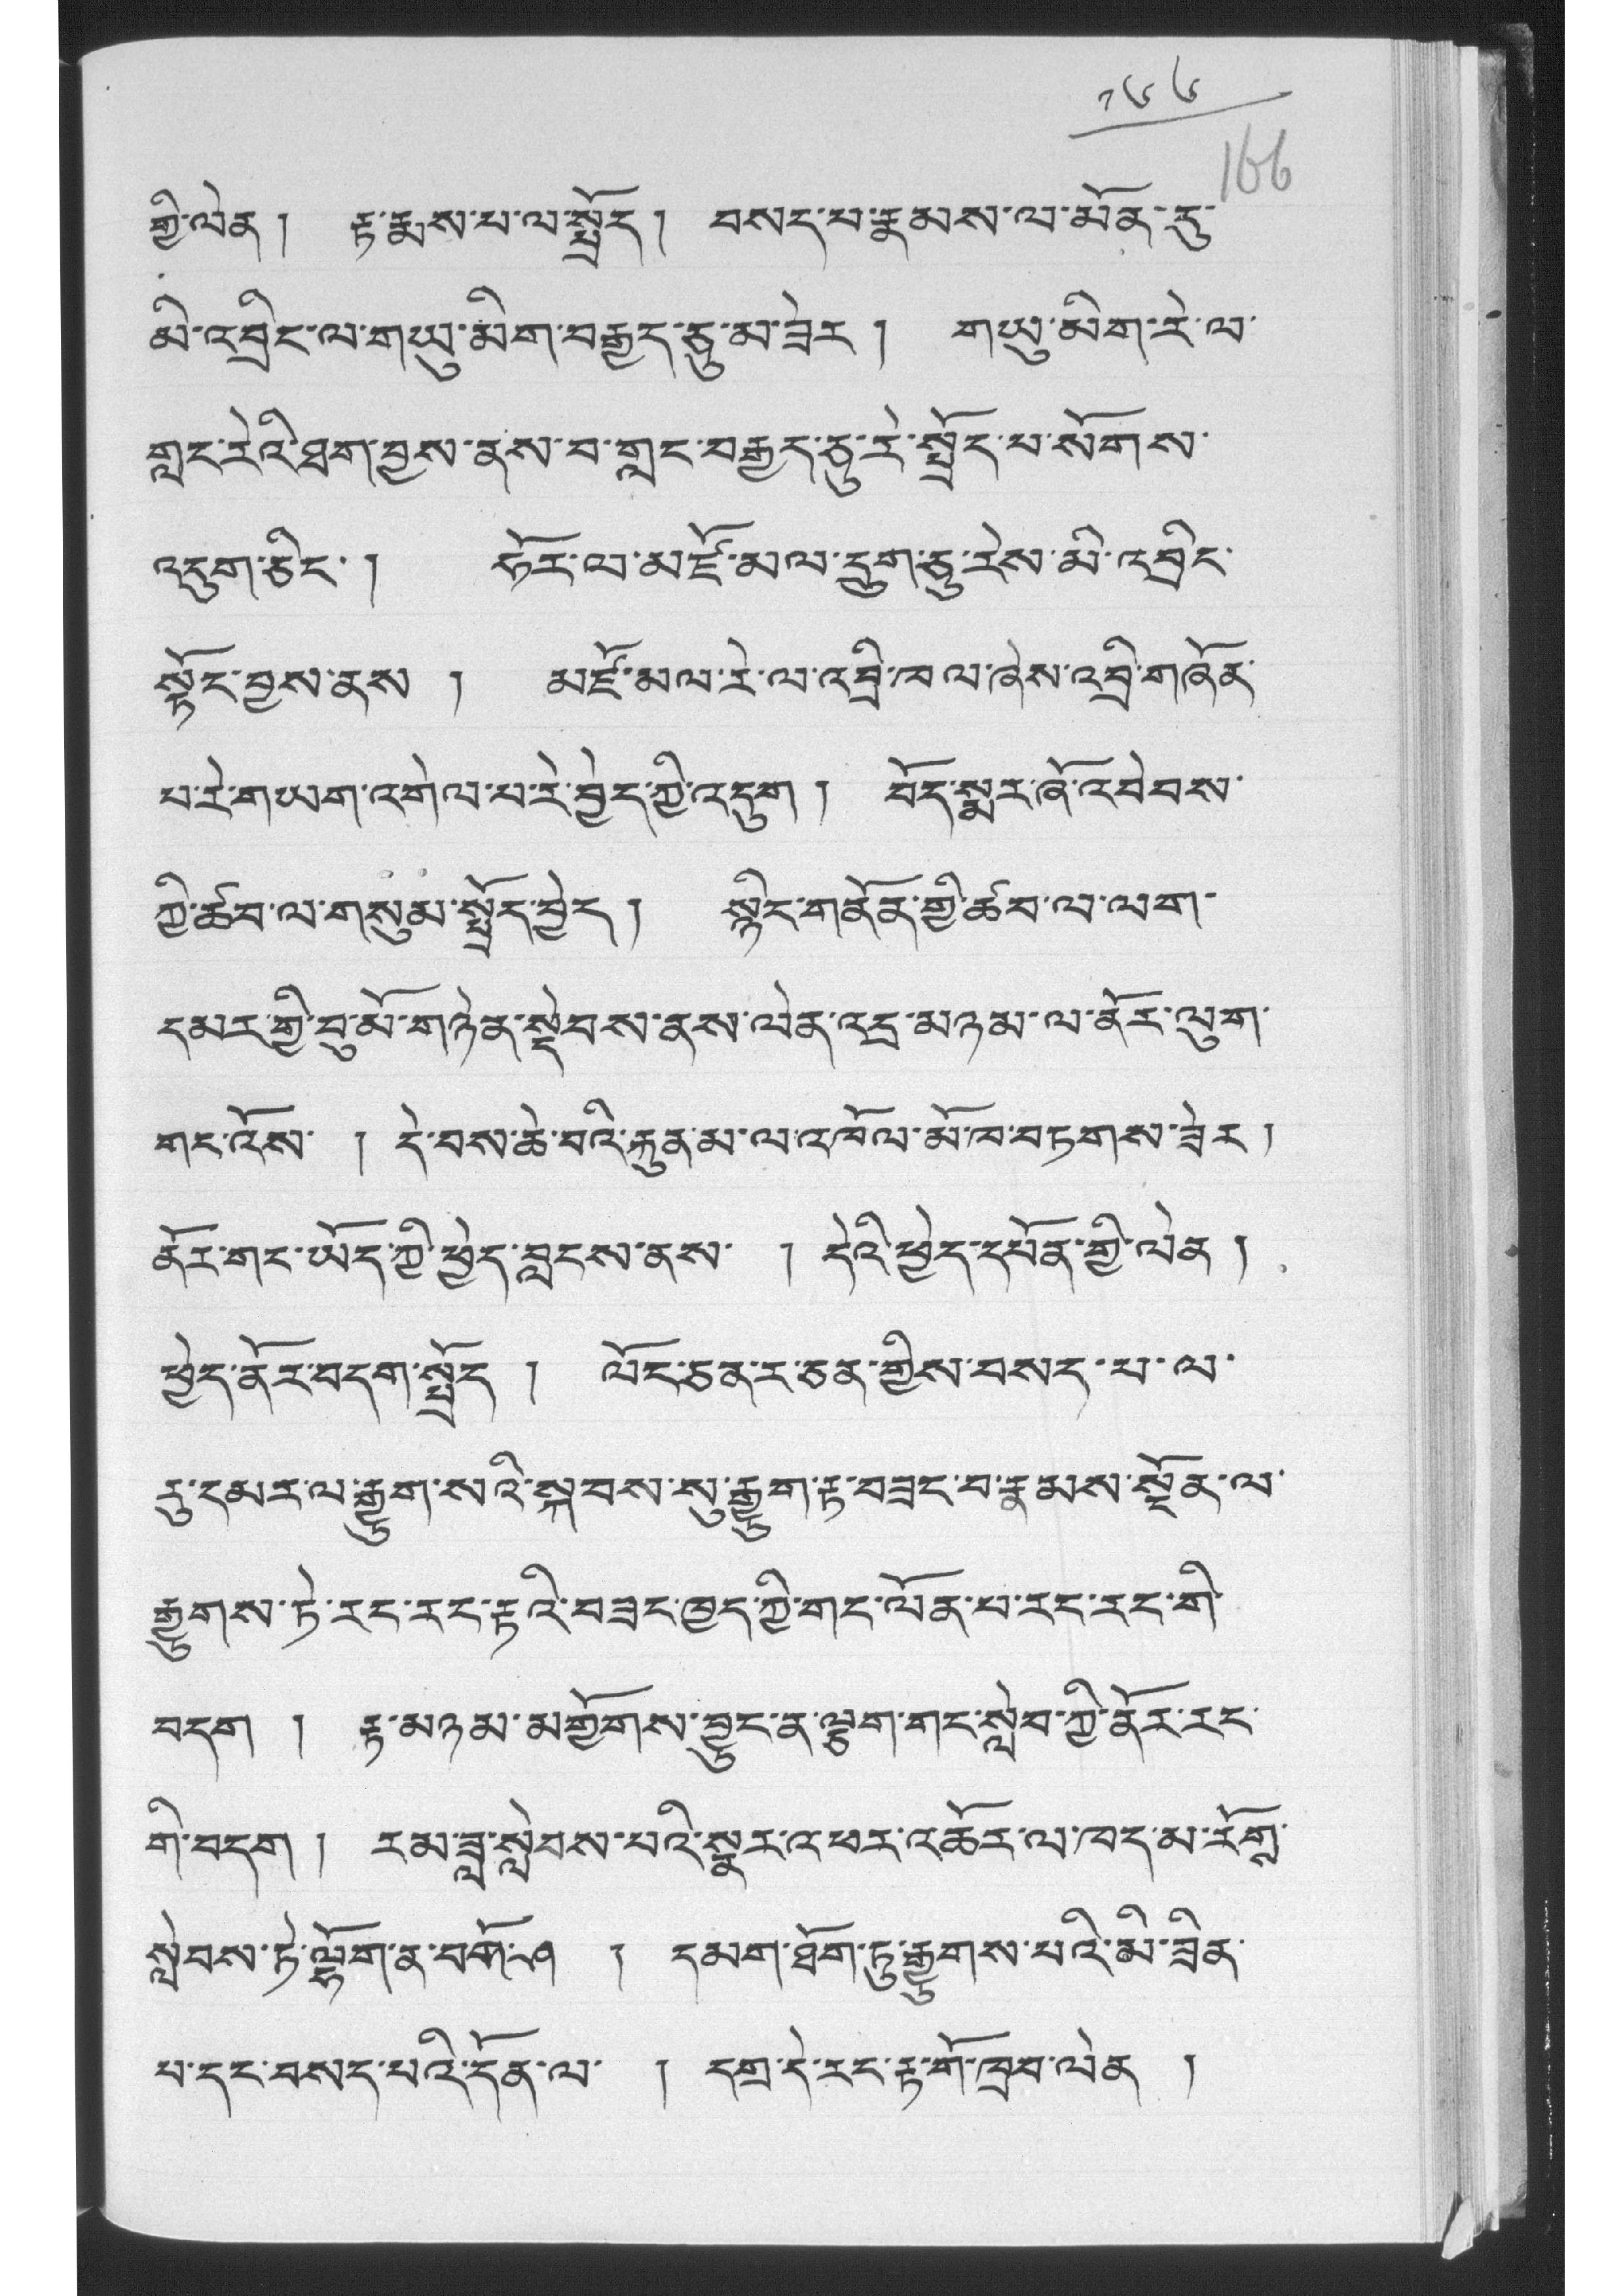༡༦༦
གྱི་ལེན ། རྟ་རྨས་པ་ལ་སྤྲོད། བསད་པ་རྣམས་ལ་མོན་རུ་
མི་འབྲིང་ལ་གཡུ་མིག་བརྒྱད་ཅུ་མ་ཟེར ། གཡུ་མིག་རེ་ལ་
གླང་རེའི་ཐག་བྱས་ནས་བ་གླང་བརྒྱད་ཅུ་རེ་སྤྲོད་པ་སོགས་
འདུག་ཅིང་ ། ཧོར་ལ་མཛོ་མལ་དྲུག་ཅུ་རེས་མི་འབྲིང་
སྟོང་བྱས་ནས ། མཛོ་མལ་རེ་ལ་འབྲི་ཁལ་ཞེས་འབྲི་གཞོན་
པ་རེ་གཡག་འགེལ་པ་རེ་བྱེད་ཀྱི་འདུག ། བོད་སྨར་ཞོ་འབེབས་
ཀྱི་ཚབ་ལ་གསུམ་སྤྲོད་བྱེད། སྙིང་གནོན་གྱི་ཚབ་ལ་ལག་
དམར་གྱི་བུ་མོ་གཉེན་སྡེབས་ནས་ལེན་འདྲ་མཉམ་ལ་ནོར་ལུག་
གང་འོས་ ། དེ་བས་ཆེ་བའི་རྐུན་མ་ལ་འཁོལ་མོ་ཁ་བཏགས་ཟེར །
ནོར་གང་ཡོད་ཀྱི་ཕྱེད་བླངས་ནས་ ། དེའི་ཕྱེད་དཔོན་གྱི་ལེན །
ཕྱེད་ནོར་བདག་སྤྲོད ། ལོང་ཅན་ར་ཅན་གྱིས་བསད་པ་ལ་
རུ་དམར་ལ་རྒྱུག་སའི་སྐབས་སུ་རྒྱུག་རྟ་བཟང་བ་རྣམས་སྔོན་ལ་
རྒྱུགས་ཏེ་རང་རང་རྟའི་བཟང་ཁྱད་ཀྱི་གང་ལོན་པ་རང་རང་གི་
བདག ། རྟ་མཉམ་མགྱོགས་བྱུང་ན་ལྕག་གང་སླེབ་ཀྱི་ནོར་རང་
གི་བདག ། རམ་ཟླ་སླེབས་པའི་སྣར་འཕར་འཆོར་ལ་ཁད་མ་རོགས་
སླེབས་ཏེ་ལྷོག་ན་བགོ་ཤ ། དམག་ཐོག་ཏུ་རྒྱུགས་པའི་མི་ཟིན་
པ་དང་བསད་པའི་དོན་ལ་ ། དགྲ་དེ་རང་རྟ་གོ་ཁྲབ་ལེན །
